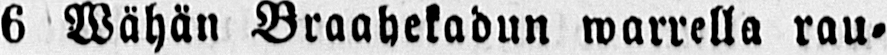6 Wähän Braahekadun warrella rau-
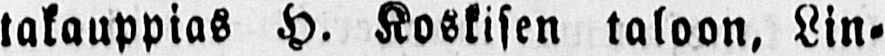takauppias H. Koskisen taloon, Lin-
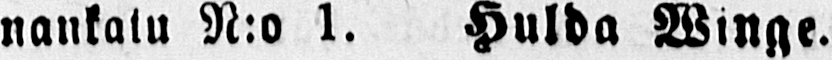nankatu N:o 1. Hulda Winge.
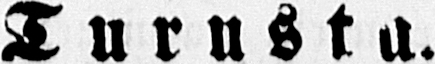Turusta.
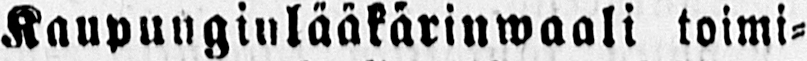Kaupunginlääkärinwaali toimi-
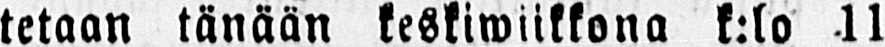tetaan tänään keskiwiikkona k:lo 11
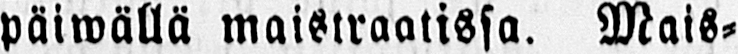päiwällä maistraatissa. Mais-
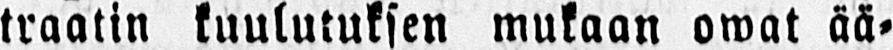traatin kuulutuksen mukaan owat ää-
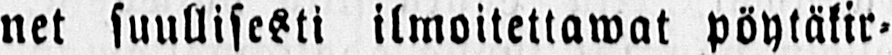net suullisesti ilmoitettawat pöytäkir-
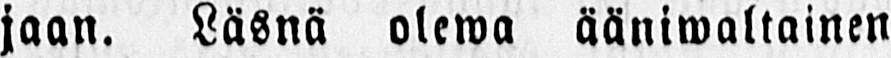jaan. Läsnä olewa ääniwaltainen
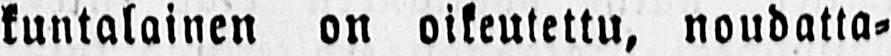kuntalainen on oikeutettu, noudatta-
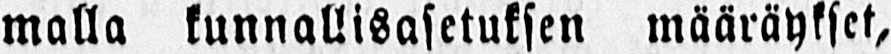malla kunnallisasetuksen määräykset,
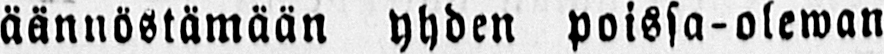äännöstämään yhden poissa-olewan
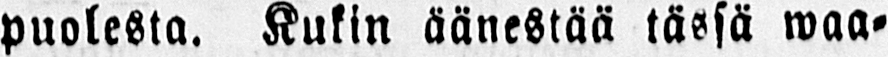puolesta. Kukin äänestää tässä waa-
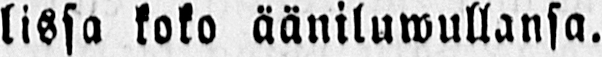lissa koko ääniluwullansa.
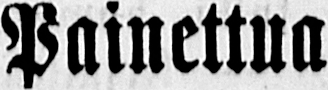Painettua
